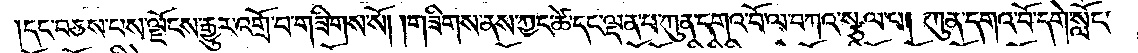དང་བཅས་པས་ལྗོངས་རྒྱུར་འགྲོ་བ་གཟིགས་སོ། །གཟིགས་ནས་ཀྱང་ཚེ་དང་ལྡན་པ་ཀུན་དགའ་བོ་ལ་བཀའ་སྩལ་པ། ཀུན་དགའ་བོ་དགེ་སློང་
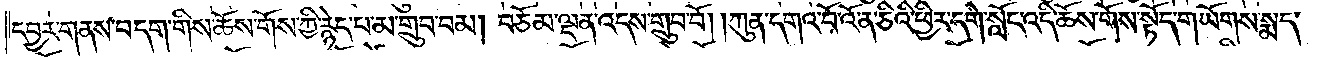དབྱར་གནས་བདག་གིས་ཆོས་གོས་ཀྱི་རྙེད་པ་མ་གྲུབ་བམ། བཅོམ་ལྡན་འདས་གྲུབ་བོ། །ཀུན་དགའ་བོ་འོ་ན་ཅིའི་ཕྱིར་དགེ་སློང་འདི་ཆོས་གོས་སྟོད་གཡོགས་སྨད་
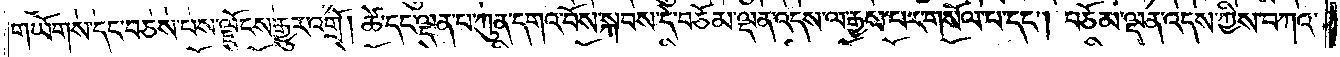གཡོགས་དང་བཅས་པས་ལྗོངས་རྒྱུར་འགྲོ། ཚེ་དང་ལྡན་པ་ཀུན་དགའ་བོས་སྐབས་དེ་བཅོམ་ལྡན་འདས་ལ་རྒྱས་པར་གསོལ་པ་དང༌། བཅོམ་ལྡན་འདས་ཀྱིས་བཀའ་
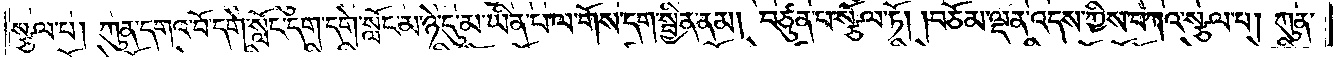སྩལ་པ། ཀུན་དགའ་བོ་དགེ་སློང་དག་དགེ་སློང་མ་ཉེ་དུ་མ་ཡིན་པ་ལ་གོས་དག་སྦྱིན་ནམ། བཙུན་པ་སྩོལ་ཏོ། །བཅོམ་ལྡན་འདས་ཀྱིས་བཀའ་སྩལ་པ། ཀུན་
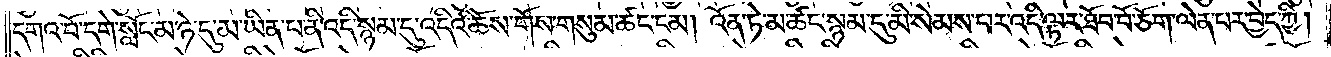དགའ་བོ་དགེ་སློང་མ་ཉེ་དུ་མ་ཡིན་པ་ནི་འདི་སྙམ་དུ་འདིའི་ཆོས་གོས་གསུམ་ཚང་ངམ། འོན་ཏེ་མ་ཚང་སྙམ་དུ་མི་སེམས་པར་འདི་ལྟར་ཐོབ་བོ་ཅོག་ལེན་པར་བྱེད་ཀྱི།
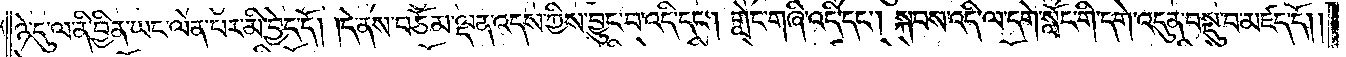ཉེ་དུ་ལ་ནི་བྱིན་ཡང་ལེན་པར་མི་བྱེད་དོ། །དེ་ནས་བཅོམ་ལྡན་འདས་ཀྱིས་བྱུང་བ་འདི་དང༌། གླེང་གཞི་འདི་དང༌། སྐབས་འདི་ལ་དགེ་སློང་གི་དགེ་འདུན་བསྡུ་བ་མཛད་དོ། །
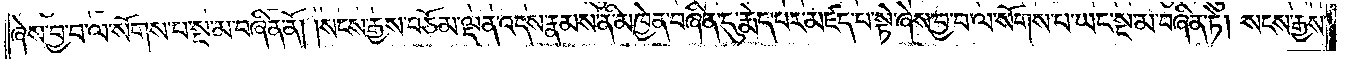ཞེས་བྱ་བ་ལ་སོགས་པ་སྔ་མ་བཞིན་ནོ། །སངས་རྒྱས་བཅོམ་ལྡན་འདས་རྣམས་ནི་མཁྱེན་བཞིན་དུ་རྨེད་པར་མཛད་པ་སྟེ་ཞེས་བྱ་བ་ལ་སོགས་པ་ཡང་སྔ་མ་བཞིན་ཏེ། སངས་རྒྱས་
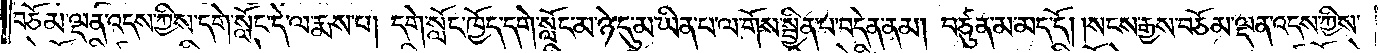བཅོམ་ལྡན་འདས་ཀྱིས་དགེ་སློང་དེ་ལ་རྨས་པ། དགེ་སློང་ཁྱོད་དགེ་སློང་མ་ཉེ་དུ་མ་ཡིན་པ་ལ་གོས་སྦྱིན་པ་བདེན་ནམ། བཙུན་མ་མད་དོ། །སངས་རྒྱས་བཅོམ་ལྡན་འདས་ཀྱིས་
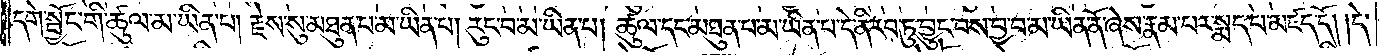དགེ་སྦྱོང་གི་ཚུལ་མ་ཡིན་པ། རྗེས་སུ་མཐུན་པ་མ་ཡིན་པ། རུང་བ་མ་ཡིན་པ། ཚུལ་དང་མཐུན་པ་མ་ཡིན་པ་དེ་ནི་རབ་ཏུ་བྱུང་བས་བྱ་བ་མ་ཡིན་ནོ་ཞེས་རྣམ་པར་སྨད་པ་མཛད་དོ། །དེ་
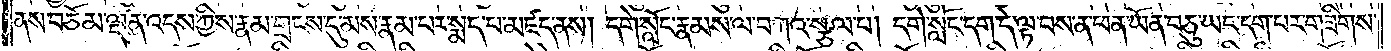ནས་བཅོམ་ལྡན་འདས་ཀྱིས་རྣམ་གྲངས་དུ་མས་རྣམ་པར་སྨད་པ་མཛད་ནས། དགེ་སློང་རྣམས་ལ་བཀའ་སྩལ་པ། དགེ་སློང་དག་དེ་ལྟ་བས་ན་ཕན་ཡོན་བཅུ་ཡང་དག་པར་གཟིགས་
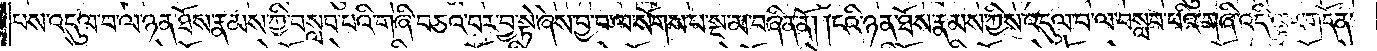པས་འདུལ་བ་ལ་ཉན་ཐོས་རྣམས་ཀྱི་བསླབ་པའི་གཞི་བཅའ་བར་བྱ་སྟེ་ཞེས་བྱ་བ་ལ་སོགས་པ་སྔ་མ་བཞིན་ནོ། །ངའི་ཉན་ཐོས་རྣམས་ཀྱིས་འདུལ་བ་ལ་བསླབ་པའི་གཞི་འདི་ལྟར་གདོན་
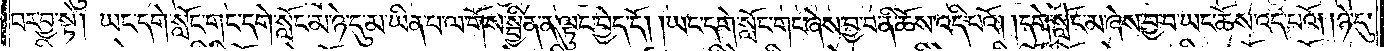བར་བྱ་སྟེ། ཡང་དགེ་སློང་གང་དགེ་སློང་མ་ཉེ་དུ་མ་ཡིན་པ་ལ་གོས་སྦྱིན་ན་ལྟུང་བྱེད་དོ། ཡང་དགེ་སློང་གང་ཞེས་བྱ་བ་ནི་ཆོས་འདི་པའོ། །དགེ་སློང་མ་ཞེས་བྱ་བ་ཡང་ཆོས་འདི་པའོ། །ཉེ་དུ་
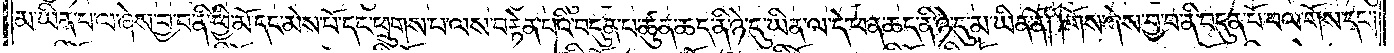མ་ཡིན་པ་ལ་ཞེས་བྱ་བ་ནི་ཕྱི་མོ་དང་མེས་པོ་དང་ཕྲུགས་པ་ལས་བརྟེན་པའི་བདུན་པ་ཚུན་ཆད་ནི་ཉེ་དུ་ཡིན་ལ་དེ་ཕན་ཆད་ནི་ཉེ་དུ་མ་ཡིན་ནོ། །གོས་ཞེས་བྱ་བ་ནི་བདུན་པོ་བལ་གོས་དང༌།
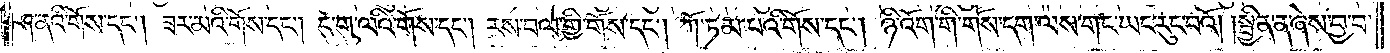ཤ་ནའི་གོས་དང༌། ཟར་མའི་གོས་དང༌། དུ་གུ་ལའི་གོས་དང༌། རས་བལ་གྱི་གོས་དང༌། ཀོ་ཏམ་པའི་གོས་དང༌། ཉི་འོག་གི་གོས་དག་ལས་གང་ཡང་རུང་བའོ། །སྦྱིན་ན་ཞེས་བྱ་བ་
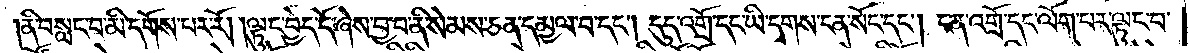ནི་བསླང་བ་མི་དགོས་པར་རོ། །ལྟུང་བྱེད་དོ་ཞེས་བྱ་བ་ནི་སེམས་ཅན་དམྱལ་བ་དང༌། དུད་འགྲོ་དང་ཡི་དྭགས་ངན་སོང་དང༌། ངན་འགྲོ་དང་ལོག་པར་ལྟུང་བ་
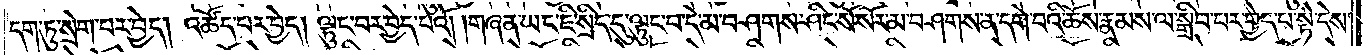དག་ཏུ་སྲེག་པར་བྱེད། འཚོད་པར་བྱེད། ལྟུང་བར་བྱེད་པའོ། །གཞན་ཡང་ཇི་སྲིད་དུ་ལྟུང་བ་དེ་མ་བཤགས་ཤིང་སོ་སོར་མ་བཤགས་ན་དགེ་བའི་ཆོས་རྣམས་ལ་སྒྲིབ་པར་བྱེད་པ་སྟེ་དེས་
